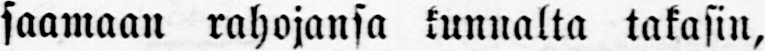saamaan rahojansa kunnalta takasin,
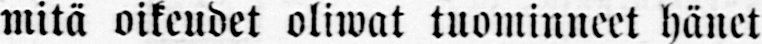mitä oikeudet oliwat tuominneet hänet
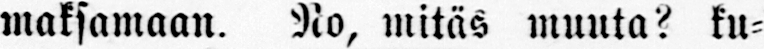maksamaan. No, mitäs muuta? ku-
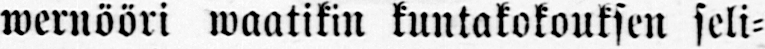wernööri waatikin kuntakokouksen seli-
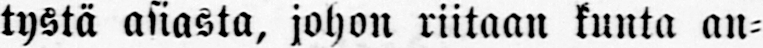tystä asiasta, johon riitaan kunta an-
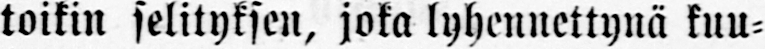toikin selityksen, joka lyhennettynä kuu-
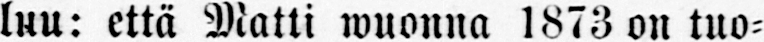luu: että Matti wuonna 1873 on tuo-
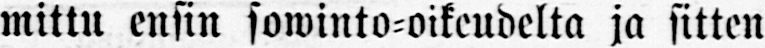mittu ensin sowinto-oikeudelta ja sitten
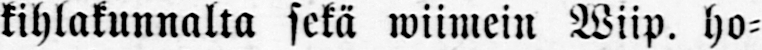kihlakunnalta sekä wiimein Wiip. ho-
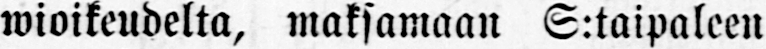wioikeudelta, maksamaan S:taipaleen
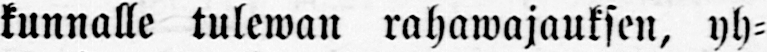kunnalle tulewan rahawajauksen, yh-
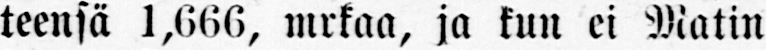teensä 1,666, mrkaa, ja kun ei Matin
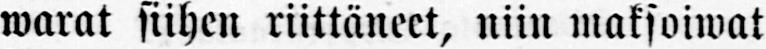warat siihen riittäneet, niin maksoiwat
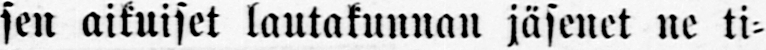sen aikuiset lautakunnan jäsenet ne ti-
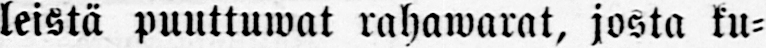leistä puuttuwat rahawarat, josta ku-
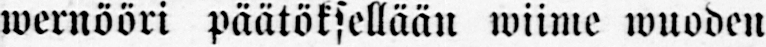wernööri päätöksellään wiime wuoden
